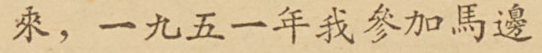來，一九五一年我參加馬邊
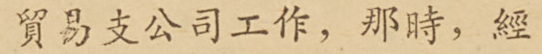貿易支公司工作，那時，經
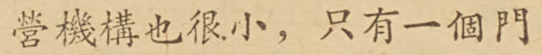營機構也很小，只有一個門
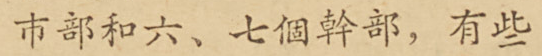市部和六、七個幹部，有些
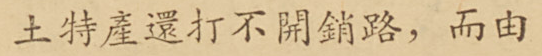土特產還打不開銷路，而由
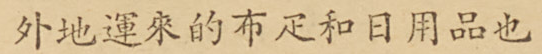外地運來的布疋和日用品也
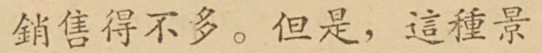銷售得不多。但是，這種景
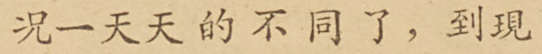況一天天的不同了，到現
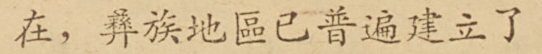在，彝族地區已普遍建立了
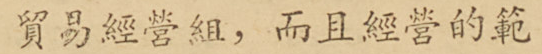貿易經營組，而且經營的範
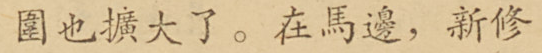圍也擴大了。在馬邊，新修
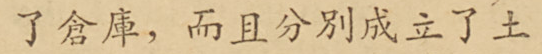了倉庫，而且分別成立了土
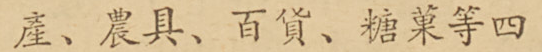產、農具、百貨、糖菓等四
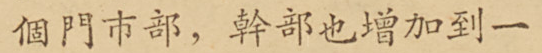個門市部，幹部也增加到一
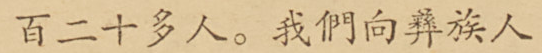百二十多人。我們向彝族人
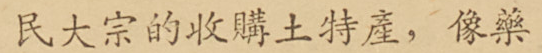民大宗的收購土特產，像藥
